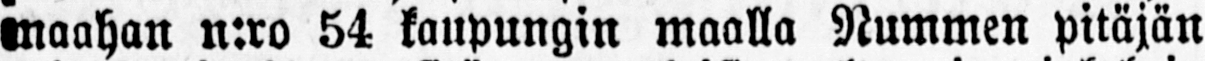maahan n:ro 54 kaupungin maalla Nummen pitäjän
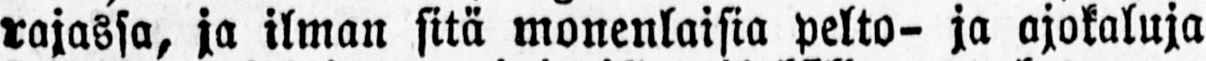rajassa, ja ilman sitä monenlaisia pelto- ja ajokatuja
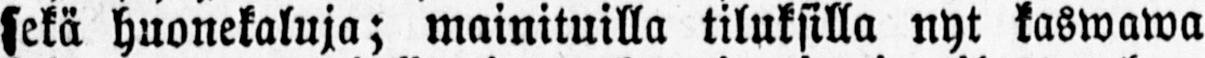sekä huonekaluja; mainituilla tiluksilla nyt kaswawa
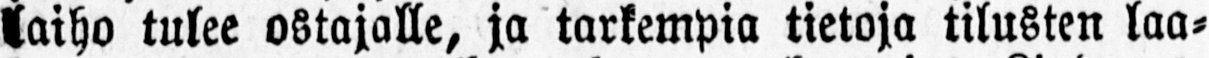laiho tulee ostajalle, ja tarkempia tietoja tilusten laa-
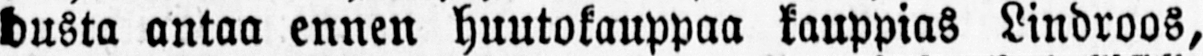dusta antaa ennen huutokauppaa kauppias Lindroos,
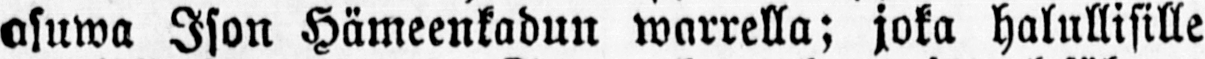asuwa Ison Hämeenkadun warrella; joka halullisille
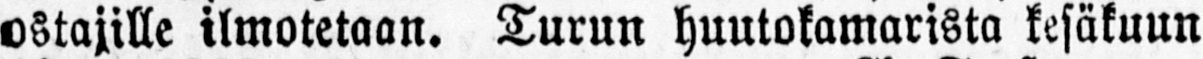ostajille ilmotetaan. Turun huutokamarista kesäkuun
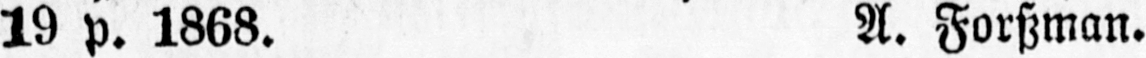19 p.1868. A. Forszman.
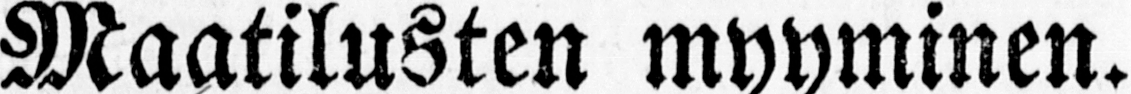Maatilusten myyminen.
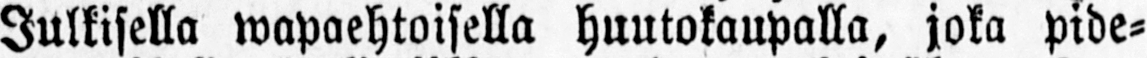Julkisella wapaehtoisella huutokaupalla, joka pide-
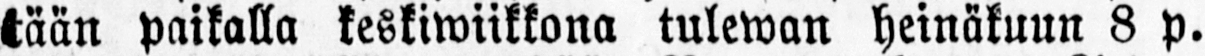tään paikalla keskiwiikkona tulewan heinäkuun 8 p.
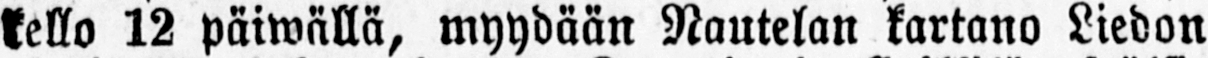kello 12 päiwällä, myydään Nautelan kartano Liedon
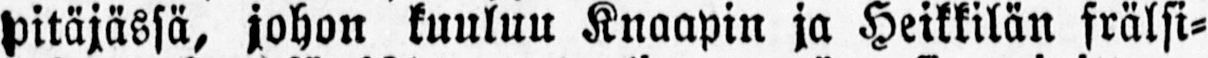pitäjässä, johon kuuluu Knaapin ja Heikkilän frälsi-
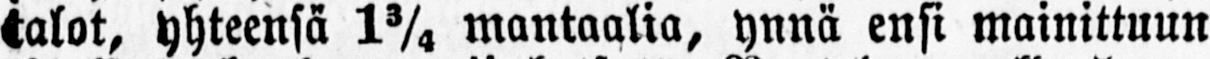talot, yhteensä 1¾ mantaalia, ynnä ensi mainittuun
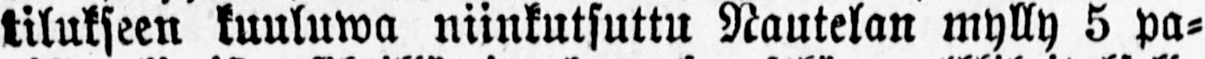tilukseen kuuluwa niinkutsuttu Nautelan mylly 5 pa-
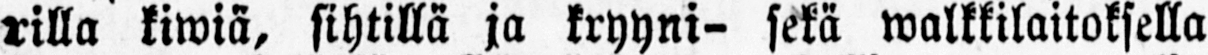rilla kiwiä, sihtillä ja kryyni- sekä walkkilaitoksella
